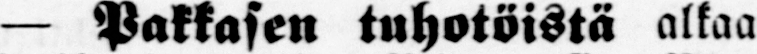— Pakkasen tuhotöistä alkaa
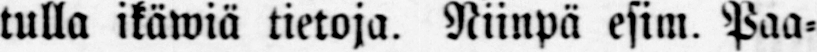tulla ikäwiä tietoja. Niinpä esim. Paa-
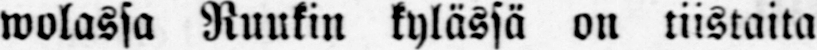walassa Ruukin kylässä on tiistaita
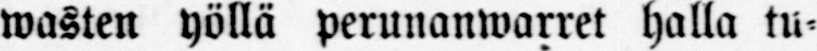wasten yöllä perunanwarret halla tu-
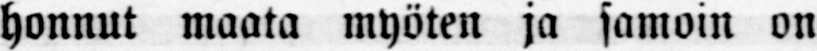honnut maata myöten ja samoin on
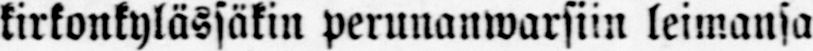kirkonkylässäkin perunanwarsiin leimansa
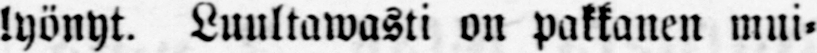lyönyt. Luultawasti on pakkanen mui-
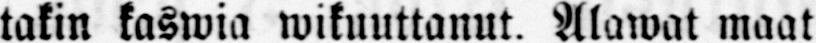takin kaswia wikuuttanut. Alawat maat
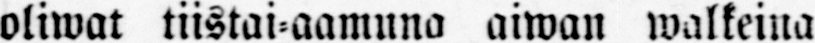oliwat tiistai-aamuna aiwan walkeina
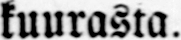kuurasta.
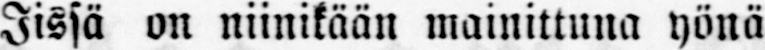Iissä on niinikään mainittuna yönä
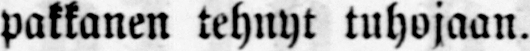pakkanen tehnyt tuhojaan.
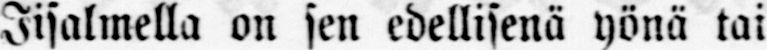Iisalmella on sen edellisenä yönä tai
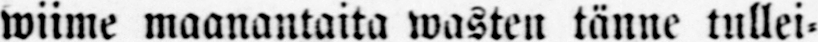wiime maanantaita wasten tänne tullei-
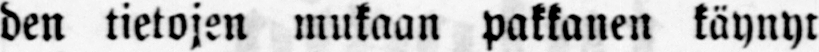den tietojen mukaan pakkanen käynyt
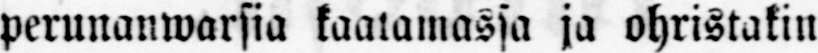perunanwarsia kaatamassa ja ohristakin
